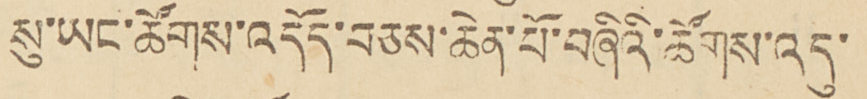སུ་ཡང་ཚོགས་འདོད་བཅས་ཆེན་པོ་བཞིའི་ཚོགས་འདུ་
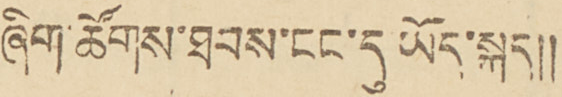ཞིག་ཚོགས་ཐབས་ངང་དུ་ཡོད་སྐད།།
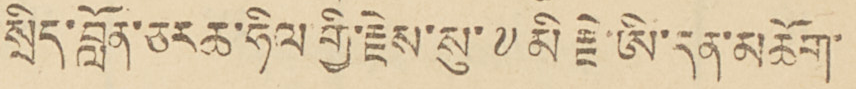སྲིད་བློན་ཅར ཆ་ཧིལ གྱི་རྗེས་སུ་༧མི རྗེ་ཨི་དན་མཆོག་
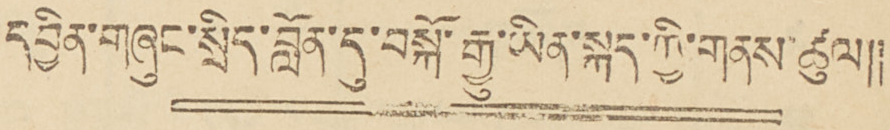དབྱིན་གཞུང་སྲིད་བློན་དུ་བསྐོ་རྒྱུ་ཡིན་སྐད་ཀྱི་གནས་ཚུལ།།
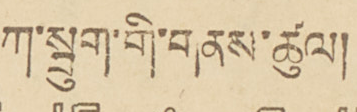ཀ་སྦུག་གི་གནས་ཚུལ།
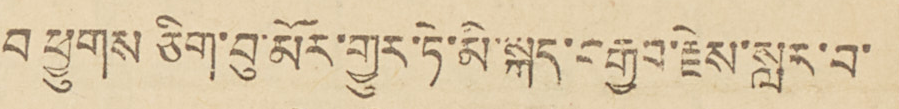བ ཕྱུགས ཅིག་བུ་མོར་གྱུར་ཏེ་མི་སྐད་བརྒྱབ་རྗེས་སླར་བ་
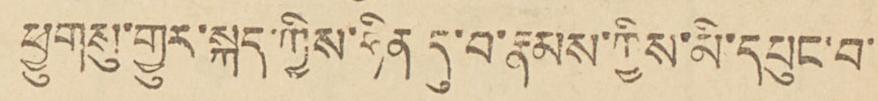ཕྱུ གསུ་གྱུར་སྐད་ཀྱིས་ཧིན དུ་བ་རྣམས་ཀྱིས་མི་དཔུང་བ་
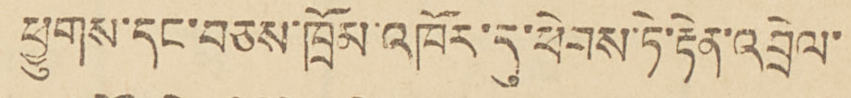ཕྱུགས་དང་བཅས་ཁྲོམ་འཁོར་དུ་ཕེབས་ཏེ་རྟེན་འབྲེལ་
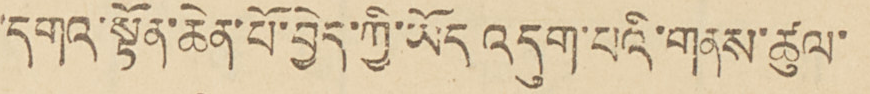་དགའ་སྟོན་ཆེན་པོ་བྱེད་ཀྱི་ཡོད འདུག་པའི་གནས་ཚུལ་
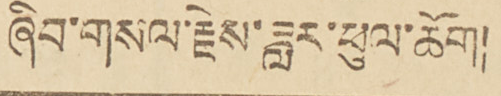ཞིབ་གསལ་རྗེས་ཟླར་ཕུལ་ཆོག།
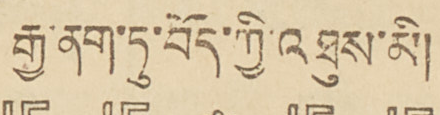རྒྱ་ནག་རྱ་བོད་ཀྱི་འཐུས་མི།
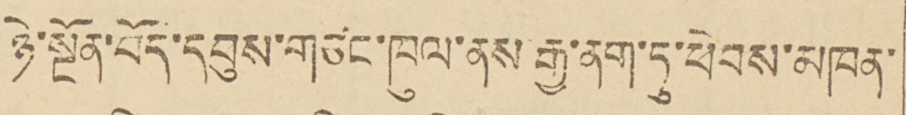ཉེ་སྔོན་བོད་དབུས་གཙང་ཁུལ་ནས་རྒྱ་ནག་ཏུ་ཕེབས་མཁན་
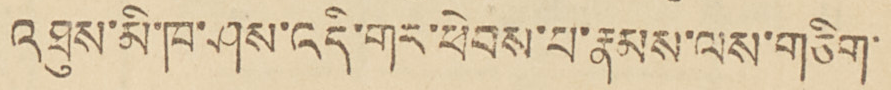འཐུས་མི་ཁ་ཤས་འདི་གར་ཕེབས་པ་རྣམས་ལས་གཅིག་
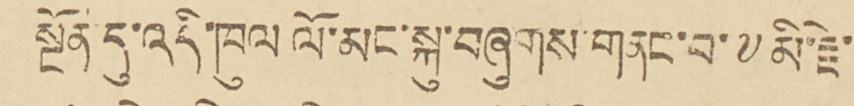སྔོན་དུ་འདི་ཁུལ ལོ་མང་སྐུ་བཞུགས་གནང་བ་༧མི་རྗེ་
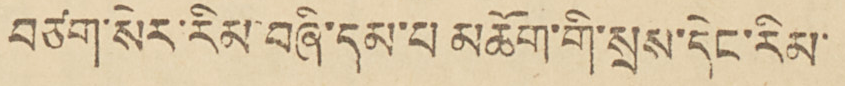བཙག་སེར་རིམ་བཞི་དམ་པ མཆོག་གི་སྲས་དེང་རིམ་
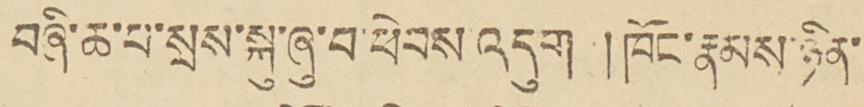བཞི་ཆ་པ་སྲས་སྐུ་ཞུ་བ་ཕེབས་འདུག །ཁོང་རྣམས་ཉིན་
